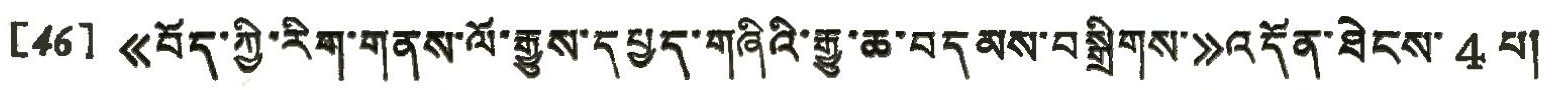[46] 《བོད་ཀྱི་རིག་གནས་ལོ་རྒྱུས་དཔྱད་གཞིའི་རྒྱུ་ཆ་བདམས་བསྒྲིགས་》འདོ་ཐེངས་4 པ།
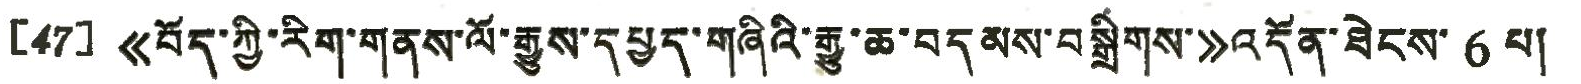[47] 《བོད་ཀྱི་རིག་གནས་ལོ་རྒྱུས་དཔྱད་གཞིའི་རྒྱུ་ཆ་བདམས་བསྒྲིགས་》འདོན་ཐེངས་6 པ།
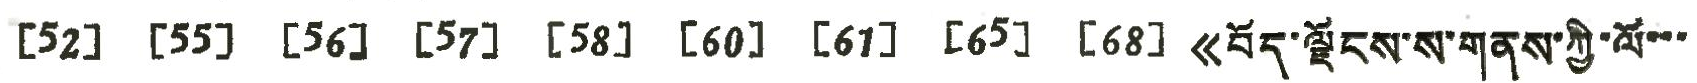[52] [55] [56] [57] [58] [60] [61] [65] [68] 《བོད་ལྗོངས་ས་གནས་ཀྱི་ལོ་་་
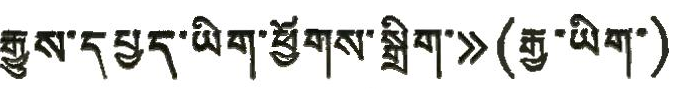རྒྱུས་དཔྱད་ཡིག་ཕྱོགས་སྒྲིག་》 (རྒྱ་ཡིག་)
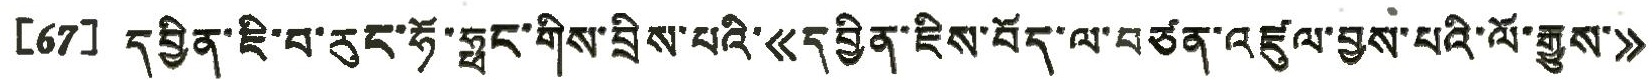[67] དབྱིང་ཇི་བ་རུང་ཧོ་ཧྥང་གིས་བྲིས་པའི་《དབྱིན་ཇིས་བོད་ལ་བཙན་འཛུལ་བྱས་པའི་ལོ་རྒྱུས་》
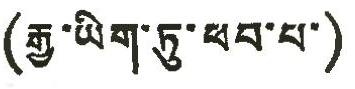(རྒྱ་ཡིག་ཏུ་ཕབ་པ་)
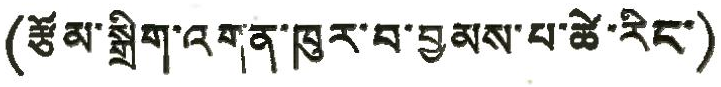(རྩོམ་སྒྲིག་འགན་ཁུར་བ་བྱམས་པ་ཚེ་རིང་)
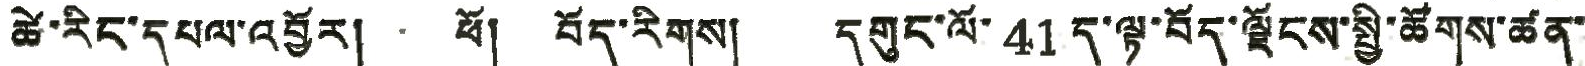ཚེ་རིང་དཔལ་འབྱོར། ཕོ། བོད་རིགས། དགུང་ལོ་41 ད་ལྟ་བོད་ལྗོངས་སྤྱི་ཚོགས་ཚན་
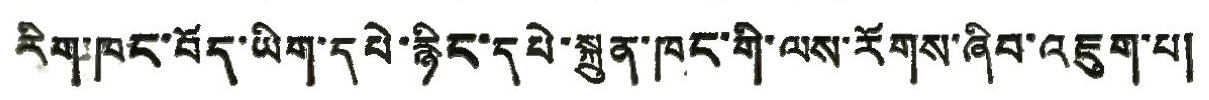རིག་ཁང་བོད་ཡིག་དཔེ་རྙིང་དཔེ་སྐྲུན་ཁང་གི་ལས་རོགས་ཞིབ་འཇུག་པ།
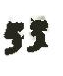53
